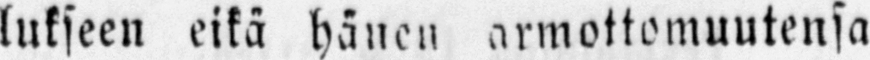lukseen eikä hänen armottomuutensa
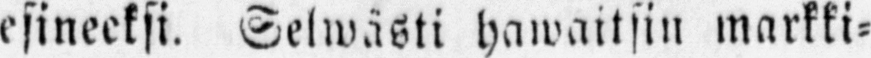esineeksi. Selwästi hawaitsin markki-
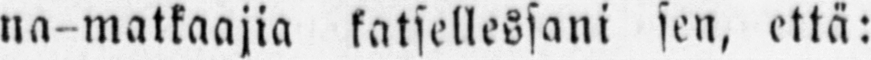na-matkaajia katsellessani sen, että:
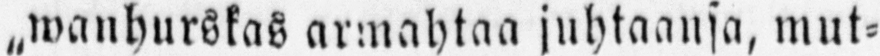„wanhurskas armahtaa juhtaansa, mut-
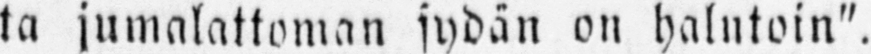ta jumalattoman sydän on halutoin".
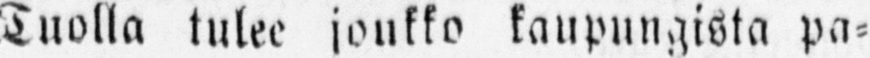Tuolla tulee joukko kaupungista pa-
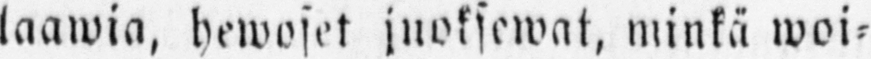laawia, hewoset juoksewat, minkä woi-
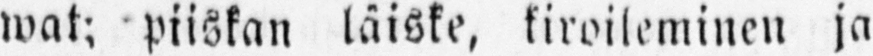wat; piiskan läiske, kiroileminen ja
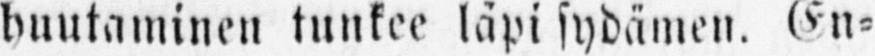huutaminen tunkee läpi sydämen. En-
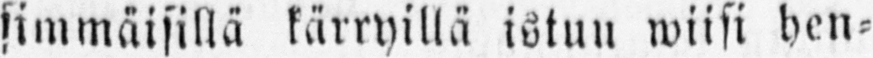simmäisillä kärryillä istuu wiisi hen-
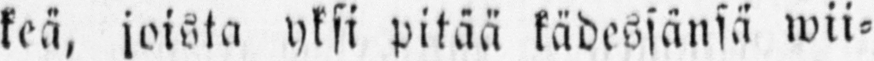keä, joista yksi pitää kädessänsä wii-
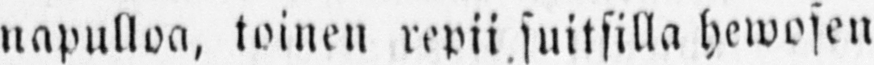napulloa, toinen repii suitsilla hewosen
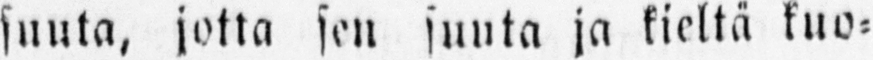suuta, jotta sen suuta ja kieltä kuo-
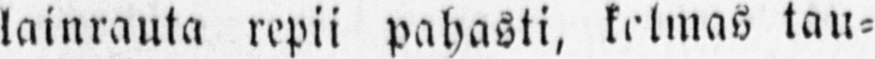lainrauta repii pahasti, kolmas tau-
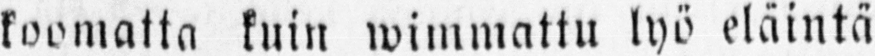koomatta kuin wimmattu lyö eläintä
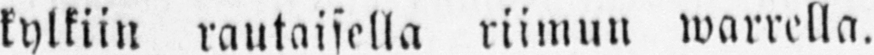kylkiin rautaisella riimun warrella.
